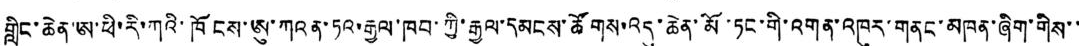གླིང་ཆེན་ཨ་ཕི་རི་ཀའི་ཁོངས་ཨུ་ཀའན་ཏའ་རྒྱལ་ཁབ་ཀྱི་རྒྱལ་དམངས་ཚོགས་འདུ་ཆེན་མོ་ཏང་གི་འགན་འཁུར་གནང་མཁན་ཞིག་གིས་་
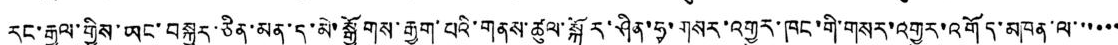རང་རྒྱལ་གྱིས་ཡང་བསྐྱར་ཅིན་མན་དུ་མེ་སྒྱོགས་རྒྱག་པའི་གནས་ཚུལ་སྐོར་ཤིན་ཧྭ་གསར་འགྱུར་ཁང་གི་གསར་འགྱུར་འགོད་མཁན་ལ་་་་་་
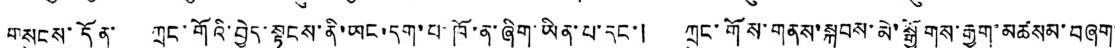གསུངས་དོན་ ཀྲུང་གོའི་བྱེད་སྟངས་ནི་ཡང་དག་པ་ཁོ་ན་ཞིག་ཡིན་པ་དང་། ཀྲུང་གོས་གནས་སྐབས་མེ་སྒྱོགས་རྒྱག་མཚསམ་བཞག་
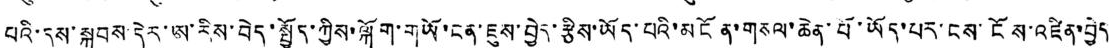པའི་དུས་སྐབས་དེར་ཨ་རིས་བེད་སྤྱོད་ཀྱིས་ལྐོག་གཡོ་ངན་ཇུས་བྱེད་རྩིས་ཡོད་པའི་མངོན་གསལ་ཆེན་པོ་ཡོད་པར་ངས་ངོས་འཛིན་བྱེད་
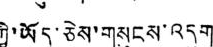ཀྱི་ཡོད་ཅེས་གསུངས་འདུག
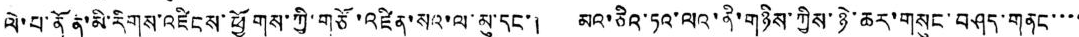ལེ་པ་ནོན་མི་རིགས་འཛིངས་ཕྱོགས་ཀྱི་གཙོ་འཛིན་སའ་ལ་མུ་དང་། མའ་ཅིའ་ཏའ་ལའ་ནི་གཉིས་ཀྱིས་ཉེ་ཆར་གསུང་བཤད་གནང་་་་
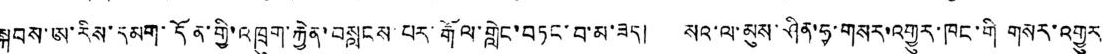སྐབས་ཨ་རིས་དམག་དོན་གྱི་འཁྲུག་རྐྱེན་བསླངས་པར་རྒོལ་གླེང་བཏང་བ་མ་ཟད། སའ་ལ་མུས་ཤིན་ཧྭ་གསར་འགྱུར་ཁང་གི གསར་འགྱུར་
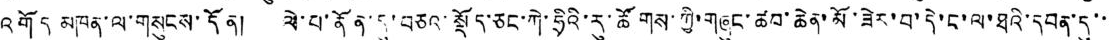འགོད མཁན་ལ་གསུངས་དོན། ལེ་པ་ནོན་དུ་བཅའ་སྡོད་ཅང་ཀེ་ཧྲིའི་རུ་ཚོགས་ཀྱི་གཞུང་ཚབ་ཆེན་མོ་ཟེར་བ་དེ་ང་ལ་ཐའི་དབན་དུ་་་་
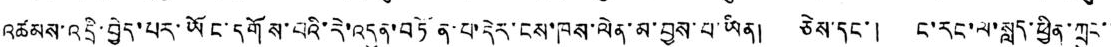འཚམས་འདྲི་བྱེད་པར་ཡོང་དགོས་པའི་རེ་འདུན་བཏོན་པ་དེར་ངས་ཁས་ལེན་མ་བྱས་པ་ཡིན། ཅེས་དང་། ང་རང་ལ་སླད་ཕྱིན་ཀྲུང་་
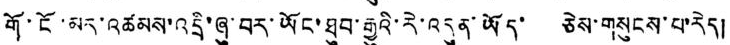གོ་ངོ་མར་འཚམས་འདྲི་ཞུ་བར་ཡོང་ཐུབ་རྒྱུའི་རེ་འདུན་ཡོད་ ཅེས་གསུངས་པ་རེད།
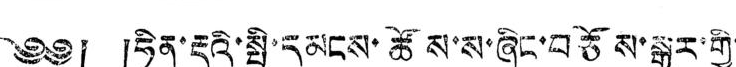༄༅། །ཧིན་རྡུའི་སྤྱི་དམངས་ཚོས་ས་ཞིང་བཅོས་སྒྱུར་གྱི་
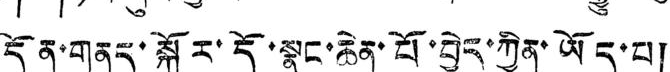དོན་གནད་སྐོར་དོ་སྣང་ཆེན་པོ་བྱེད་ཀྱིན་ཡོད་པ།
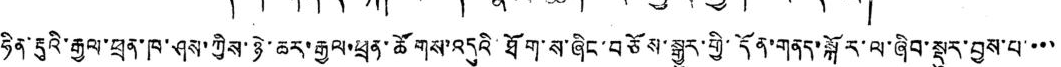ཧིན་རྡུའི་རྒྱལ་ཕྲན་ཁ་ཤས་ཀྱིས་ཉེ་ཆར་རྒྱལ་ཕྲན་ཚོགས་འདུའི་ཐོག་ས་ཞིང་བཅོས་སྒྱུར་གྱི་དོན་གནད་སྐོར་ལ་ཞིབ་སྡུར་བྱས་པ་་་་
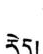རེད།
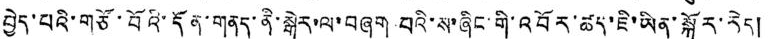བྱེད་པའི་གཙོ་བོའི་དོན་གནད་ནི་སྒེར་ལ་བཞག པའི་ས་ཞིང་གི་འབོར་ཚད་ཇི་ཡིན་སྐོར་རེད།
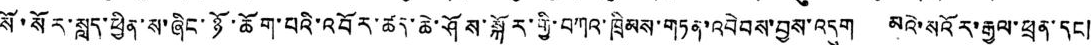སོ་སོར་སླད་ཕྱིན་ས་ཞིང་ཉོ་ཆོག་པའི་འབོར་ཚད་ཆེ་ཤོས་སྐོར་གྱི་བཀའ་ཁྲིམས་གཏན་འབེབས་བྱས་འདུག མའེ་སའོར་རྒྱལ་ཕྲན་དང།
